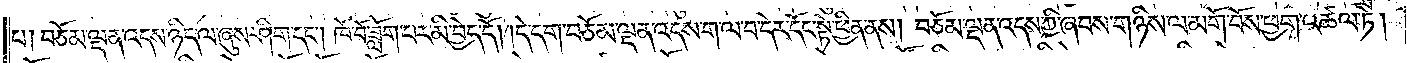པ། བཅོམ་ལྡན་འདས་ཉིད་ལ་ཞུས་ཤིག་དང༌། ཁོ་བོ་ཟློག་པར་མི་བྱེད་དོ། །དེ་དག་བཅོམ་ལྡན་འདས་ག་ལ་བ་དེར་དོང་སྟེ་ཕྱིན་ནས། བཅོམ་ལྡན་འདས་ཀྱི་ཞབས་གཉིས་ལ་མགོ་བོས་ཕྱག་འཚལ་ཏེ།
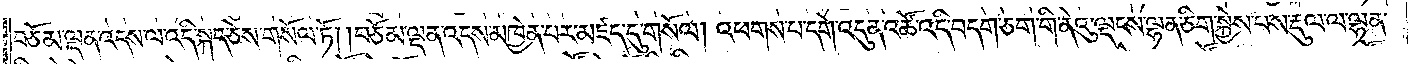བཅོམ་ལྡན་འདས་ལ་འདི་སྐད་ཅེས་གསོལ་ཏོ། །བཅོམ་ལྡན་འདས་མཁྱེན་པར་མཛད་དུ་གསོལ། འཕགས་པ་དགེ་འདུན་འཚོ་འདི་བདག་ཅག་གི་ནེའུ་ལྡངས་ལྷན་ཅིག་སྐྱེས་པས་རྡུལ་ལ་ལྷན་
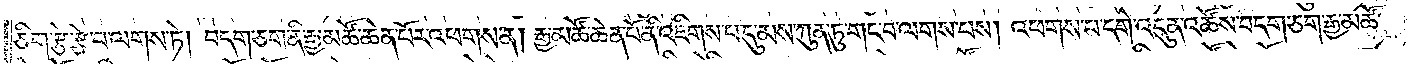ཅིག་རྩེ་རྩེ་བ་ལགས་ཏེ། བདག་ཅག་ནི་རྒྱ་མཚོ་ཆེན་པོར་འཕགས་ན། རྒྱ་མཚོ་ཆེན་པོ་ནི་འཇིགས་པ་དུ་མས་ཀུན་ཏུ་གང་བ་ལགས་པས། འཕགས་པ་དགེ་འདུན་འཚོས་བདག་ཅག་རྒྱ་མཚོ་
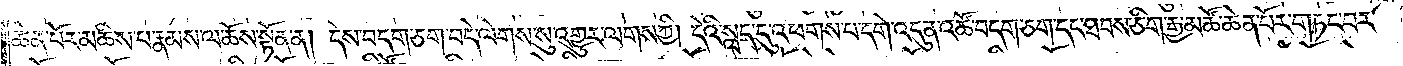ཆེན་པོར་མཆིས་པ་རྣམས་ལ་ཆོས་སྟོན་ན། དེས་བདག་ཅག་བདེ་ལེགས་སུ་འགྱུར་ལགས་ཀྱི། དེའི་སླད་དུ་འཕགས་པ་དགེ་འདུན་འཚོ་བདག་ཅག་དང་ཐབས་ཅིག་རྒྱ་མཚོ་ཆེན་པོར་གཏང་བར་
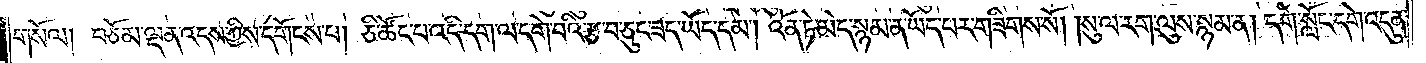གསོལ། བཅོམ་ལྡན་འདས་ཀྱིས་དགོངས་པ། ཅི་ཚོང་པ་འདི་དག་ལ་དགེ་བའི་རྩ་བ་ཅུང་ཟད་ཡོད་དམ། འོན་ཏེ་མེད་སྙམ་ན་ཡོད་པར་གཟིགས་སོ། །སུ་ལ་རག་ལུས་སྙམ་ན། དགེ་སློང་དགེ་འདུན་
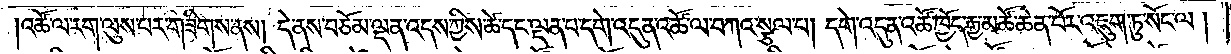འཚོ་ལ་རག་ལུས་པར་གཟིགས་ནས། དེ་ནས་བཅོམ་ལྡན་འདས་ཀྱིས་ཚེ་དང་ལྡན་པ་དགེ་འདུན་འཚོ་ལ་བཀའ་སྩལ་པ། དགེ་འདུན་འཚོ་ཁྱོད་རྒྱ་མཚོ་ཆེན་པོར་འཇུག་ཏུ་སོང་ལ།
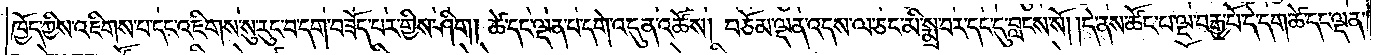ཁྱོད་ཀྱིས་འཇིགས་པ་དང་འཇིགས་སུ་རུང་བ་དག་བཟོད་པར་གྱིས་ཤིག། ཚེ་དང་ལྡན་པ་དགེ་འདུན་འཚོས། བཅོམ་ལྡན་འདས་ལ་ཅང་མི་སྨྲ་བར་དང་དུ་བླངས་སོ། །དེ་ནས་ཚོང་པ་ལྔ་བརྒྱ་པོ་དེ་དག་ཚེ་དང་ལྡན་
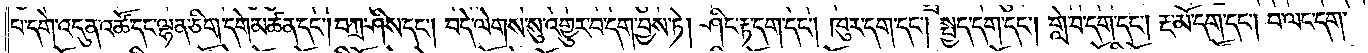པ་དགེ་འདུན་འཚོ་དང་ལྷན་ཅིག་དགེ་མཚན་དང༌། བཀྲ་ཤིས་དང༌། བདེ་ལེགས་སུ་འགྱུར་བ་དག་བྱས་ཏེ། ཤིང་རྟ་དག་དང༌། ཁུར་དག་དང༌། སྤྱད་དག་དང༌། གླེ་བ་དག་དང༌། རྔ་མོ་དག་དང༌། བ་ལང་དག་
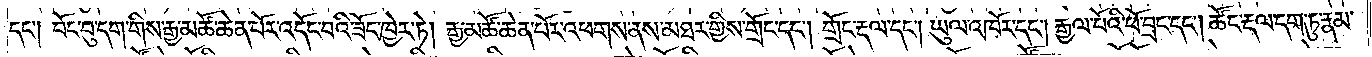དང༌། བོང་བུ་དག་གིས་རྒྱ་མཚོ་ཆེན་པོར་འདོང་བའི་ཟོང་ཁྱེར་ཏེ། རྒྱ་མཚོ་ཆེན་པོར་འཕགས་ནས་མཐར་གྱིས་གྲོང་དང༌། གྲོང་རྡལ་དང༌། ཡུལ་འཁོར་དང༌། རྒྱལ་པོའི་ཕོ་བྲང་དང༌། ཚོང་རྡལ་དག་ཏུ་རྣམ་
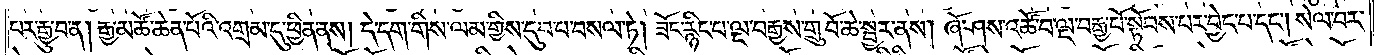པར་རྒྱུ་བ་ན། རྒྱ་མཚོ་ཆེན་པོའི་འགྲམ་དུ་ཕྱིན་ནས། དེ་དག་གིས་ལམ་གྱིས་དུབ་པ་བསལ་ཏེ། ཟོང་རྙིང་པ་ལྔ་བརྒྱས་གྲུ་བོ་ཆེ་སྦྱར་ནས། ཞོ་ཤས་འཚོ་བ་ལྔ་བརྒྱ་པོ་སྟོབས་པར་བྱེད་པ་དང༌། སེལ་བར་
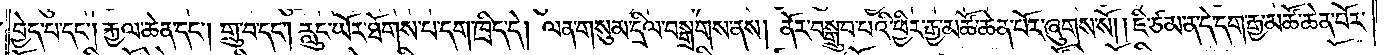བྱེད་པ་དང༌། རྐྱལ་ཆེན་དང༌། གྲུ་བ་དང༌། རླུང་ཡོར་ཐོགས་པ་དག་ཁྲིད་དེ། ལན་གསུམ་དྲིལ་བསྒྲགས་ནས། ནོར་བསྒྲུབ་པའི་ཕྱིར་རྒྱ་མཚོ་ཆེན་པོར་ཞུགས་སོ། །ཇི་ཙམ་ན་དེ་དག་རྒྱ་མཚོ་ཆེན་པོར་
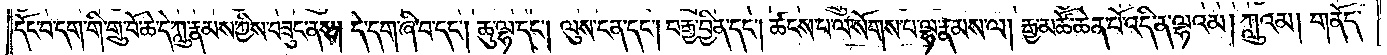དོང་བ་དག་གི་གྲུ་བོ་ཆེ་དེ་ཀླུ་རྣམས་ཀྱིས་བཟུང་ནས། དེ་དག་ཞི་བ་དང༌། ཆུ་ལྷ་དང༌། ལུས་ངན་དང༌། བརྒྱ་བྱིན་དང༌། ཚངས་པ་ལ་སོགས་པ་ལྷ་རྣམས་ལ། རྒྱ་མཚོ་ཆེན་པོ་འདི་ན་ལྷའམ། ཀླུའམ། གནོད་
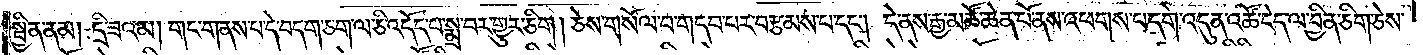སྦྱིན་ནམ། དྲི་ཟའམ། གང་གནས་པ་དེ་བདག་ཅག་ལ་ཅི་འདོད་པ་སྨྲ་བར་གྱུར་ཅིག། ཅེས་གསོལ་བ་གདབ་པར་བརྩམས་པ་དང༌། དེ་ནས་རྒྱ་མཚོ་ཆེན་པོ་ནས་འཕགས་པ་དགེ་འདུན་འཚོ་ངེད་ལ་བྱིན་ཅིག་ཅེས་
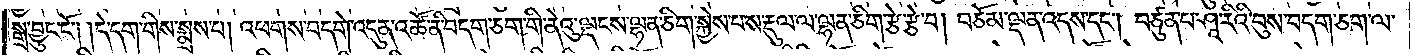སྒྲ་བྱུང་ངོ༌། །དེ་དག་གིས་སྨྲས་པ། འཕགས་པ་དགེ་འདུན་འཚོ་ནི་བདག་ཅག་གི་ནེའུ་ལྡངས་ལྷན་ཅིག་སྐྱེས་པ་ས་རྡུལ་ལ་ལྷན་ཅིག་རྩེ་རྩེ་བ། བཅོམ་ལྡན་འདས་དང༌། བཙུན་པ་ཤཱ་རིའི་བུས་བདག་ཅག་ལ་
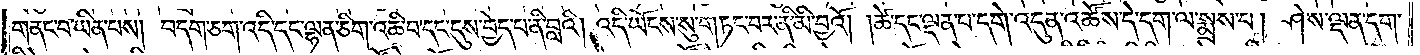གནང་བ་ཡིན་པས། བདག་ཅག་འདི་དང་ལྷན་ཅིག་འཆི་བ་དང་དུས་བྱེད་པ་ནི་བླའི། འདི་ཡོངས་སུ་གཏང་བར་ནི་མི་བྱའོ། །ཚེ་དང་ལྡན་པ་དགེ་འདུན་འཚོས་དེ་དག་ལ་སྨྲས་པ། ཤེས་ལྡན་དག་
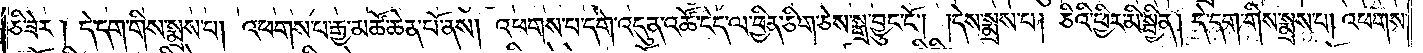ཅི་ཟེར། དེ་དག་གིས་སྨྲས་པ། འཕགས་པ་རྒྱ་མཚོ་ཆེན་པོ་ནས། འཕགས་པ་དགེ་འདུན་འཚོ་ངེད་ལ་བྱིན་ཅིག་ཅེས་སྒྲ་བྱུང་ངོ༌། །དེས་སྨྲས་པ། ཅིའི་ཕྱིར་མི་སྦྱིན། དེ་དག་གིས་སྨྲས་པ། འཕགས་
